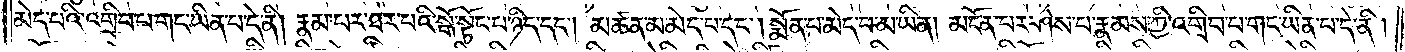མེད་པའི་འགྲིབ་པ་གང་ཡིན་པ་དེ་ནི། རྣམ་པར་ཐར་པའི་སྒོ་སྟོང་པ་ཉིད་དང༌། མཚན་མ་མེད་པ་དང༌། སྨོན་པ་མེད་པ་མ་ཡིན། མངོན་པར་ཤེས་པ་རྣམས་ཀྱི་འགྲིབ་པ་གང་ཡིན་པ་དེ་ནི།
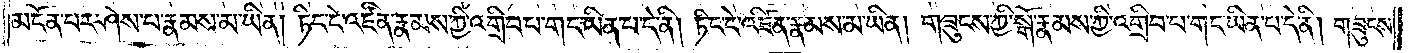མངོན་པར་ཤེས་པ་རྣམས་མ་ཡིན། ཏིང་ངེ་འཛིན་རྣམས་ཀྱི་འགྲིབ་པ་གང་ཡིན་པ་དེ་ནི། ཏིང་ངེ་འཛིན་རྣམས་མ་ཡིན། གཟུངས་ཀྱི་སྒོ་རྣམས་ཀྱི་འགྲིབ་པ་གང་ཡིན་པ་དེ་ནི། གཟུངས་
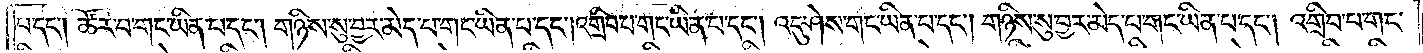པ་དང༌། ཚོར་བ་གང་ཡིན་པ་དང༌། གཉིས་སུ་བྱར་མེད་པ་གང་ཡིན་པ་དང༌། འགྲིབ་པ་གང་ཡིན་པ་དང༌། འདུ་ཤེས་གང་ཡིན་པ་དང༌། གཉིས་སུ་བྱར་མེད་པ་གང་ཡིན་པ་དང༌། འགྲིབ་པ་གང་
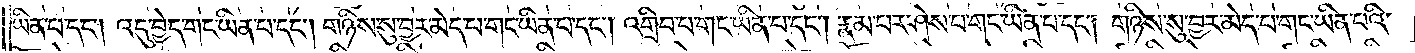ཡིན་པ་དང༌། འདུ་བྱེད་གང་ཡིན་པ་དང༌། གཉིས་སུ་བྱར་མེད་པ་གང་ཡིན་པ་དང༌། འགྲིབ་པ་གང་ཡིན་པ་དང༌། རྣམ་པར་ཤེས་པ་གང་ཡིན་པ་དང༌། གཉིས་སུ་བྱར་མེད་པ་གང་ཡིན་པའི་
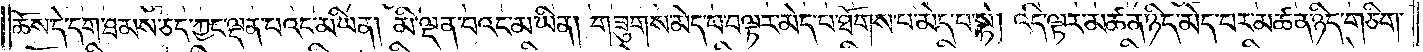ཆོས་དེ་དག་ཐམས་ཅད་ཀྱང་ལྡན་པའང་མ་ཡིན། མི་ལྡན་པའང་མ་ཡིན། གཟུགས་མེད་པ་བལྟར་མེད་པ་ཐོགས་པ་མེད་པ་སྟེ། འདི་ལྟར་མཚན་ཉིད་མེད་པར་མཚན་ཉིད་གཅིག་
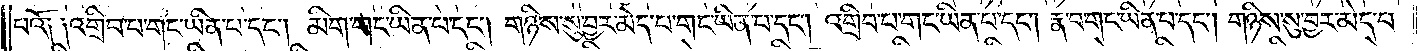པའོ༏ ༏འགྲིབ་པ་གང་ཡིན་པ་དང༌། མིག་གང་ཡིན་པ་དང༌། གཉིས་སུ་བྱར་མེད་པ་གང་ཡིན་པ་དང༌། འགྲིབ་པ་གང་ཡིན་པ་དང༌། རྣ་བ་གང་ཡིན་པ་དང༌། གཉིས་སུ་བྱར་མེད་པ་
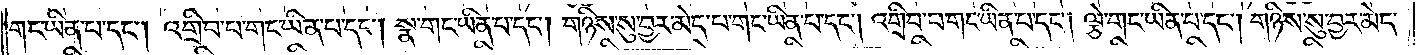གང་ཡིན་པ་དང༌། འགྲིབ་པ་གང་ཡིན་པ་དང༌། སྣ་གང་ཡིན་པ་དང༌། གཉིས་སུ་བྱར་མེད་པ་གང་ཡིན་པ་དང༌། འགྲིབ་པ་གང་ཡིན་པ་དང༌། ལྕེ་གང་ཡིན་པ་དང༌། གཉིས་སུ་བྱར་མེད་
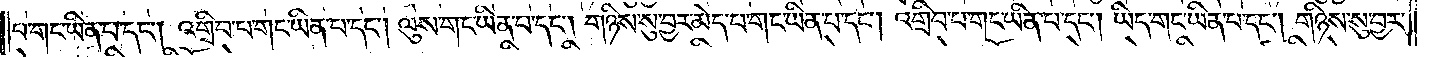པ་གང་ཡིན་པ་དང༌། འགྲིབ་པ་གང་ཡིན་པ་དང༌། ལུས་གང་ཡིན་པ་དང༌། གཉིས་སུ་བྱར་མེད་པ་གང་ཡིན་པ་དང༌། འགྲིབ་པ་གང་ཡིན་པ་དང༌། ཡིད་གང་ཡིན་པ་དང༌། གཉིས་སུ་བྱར་
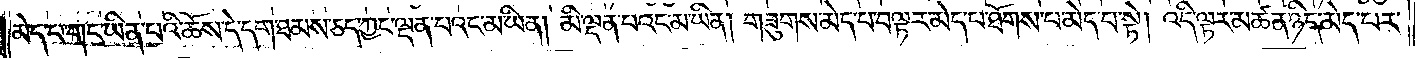མེད་པ་གང་ཡིན་པའི་ཆོས་དེ་དག་ཐམས་ཅད་ཀྱང་ལྡན་པའང་མ་ཡིན། མི་ལྡན་པའང་མ་ཡིན། གཟུགས་མེད་པ་བལྟར་མེད་པ་ཐོགས་པ་མེད་པ་སྟེ། འདི་ལྟར་མཚན་ཉིད་མེད་པར་
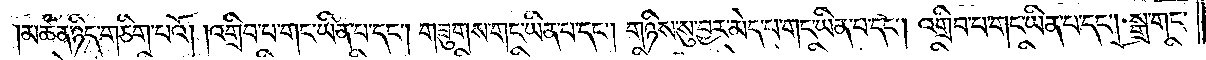མཚན་ཉིད་གཅིག་པའོ། འགྲིབ་པ་གང་ཡིན་པ་དང༌། གཟུགས་གང་ཡིན་པ་དང༌། གཉིས་སུ་བྱར་མེད་པ་གང་ཡིན་པ་དང༌། འགྲིབ་པ་གང་ཡིན་པ་དང༌། སྒྲ་གང་
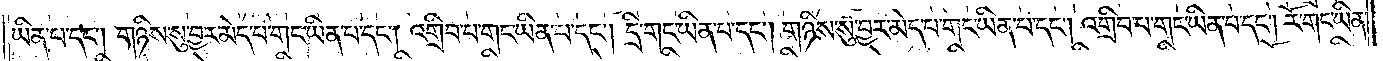ཡིན་པ་དང༌། གཉིས་སུ་བྱར་མེད་པ་གང་ཡིན་པ་དང༌། འགྲིབ་པ་གང་ཡིན་པ་དང༌། དྲི་གང་ཡིན་པ་དང༌། གཉིས་སུ་བྱར་མེད་པ་གང་ཡིན་པ་དང༌། འགྲིབ་པ་གང་ཡིན་པ་དང༌། རོ་གང་ཡིན་
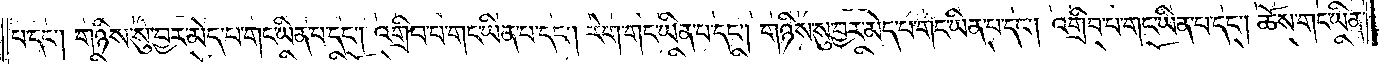པ་དང༌། གཉིས་སུ་བྱར་མེད་པ་གང་ཡིན་པ་དང༌། འགྲིབ་པ་གང་ཡིན་པ་དང༌། རེག་གང་ཡིན་པ་དང༌། གཉིས་སུ་བྱར་མེད་པ་གང་ཡིན་པ་དང༌། འགྲིབ་པ་གང་ཡིན་པ་དང༌། ཆོས་གང་ཡིན་
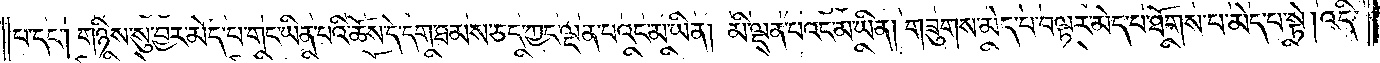པ་དང༌། གཉིས་སུ་བྱར་མེད་པ་གང་ཡིན་པའི་ཆོས་དེ་དག་ཐམས་ཅད་ཀྱང་ལྡན་པའང་མ་ཡིན། མི་ལྡན་པའང་མ་ཡིན། གཟུགས་མེད་པ་བལྟར་མེད་པ་ཐོགས་པ་མེད་པ་སྟེ། འདི་
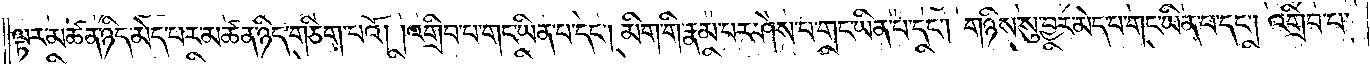ལྟར་མཚན་ཉིད་མེད་པར་མཚན་ཉིད་གཅིག་པའོ། །འགྲིབ་པ་གང་ཡིན་པ་དང༌། མིག་གི་རྣམ་པར་ཤེས་པ་གང་ཡིན་པ་དང༌། གཉིས་སུ་བྱར་མེད་པ་གང་ཡིན་པ་དང༌། འགྲིབ་པ་
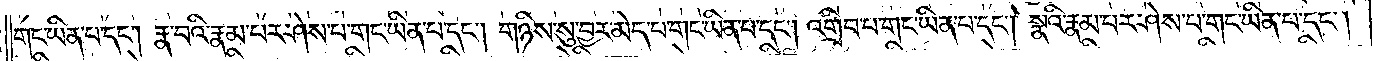གང་ཡིན་པ་དང༌། རྣ་བའི་རྣམ་པར་ཤེས་པ་གང་ཡིན་པ་དང༌། གཉིས་སུ་བྱར་མེད་པ་གང་ཡིན་པ་དང༌། འགྲིབ་པ་གང་ཡིན་པ་དང༌། སྣའི་རྣམ་པར་ཤེས་པ་གང་ཡིན་པ་དང༌།
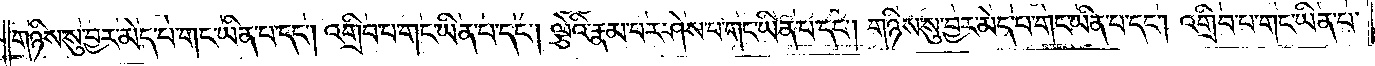གཉིས་སུ་བྱར་མེད་པ་གང་ཡིན་པ་དང༌། འགྲིབ་པ་གང་ཡིན་པ་དང༌། ལྕེའི་རྣམ་པར་ཤེས་པ་གང་ཡིན་པ་དང༌། གཉིས་སུ་བྱར་མེད་པ་གང་ཡིན་པ་དང༌། འགྲིབ་པ་གང་ཡིན་པ་
